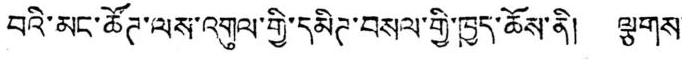བའི་མང་ཚོཊ་ལས་འགུལ་གྱི་དམིཊ་བསལ་གྱི་ཁྱད་ཆོས་ནི། ལྕགས་
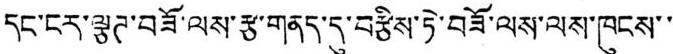དང་ངར་ལྕཊ་བཟོ་ལས་རྩ་གནད་དུ་བརྩིས་ཏེ་བཟོ་ལས་ལས་ཁུངས་་་
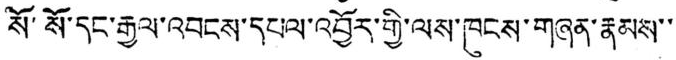སོ་སོ་དང་རྒྱལ་འབངས་དཔལ་འབྱོར་གྱི་ལས་ཁུངས་གཞན་རྣམས་་་
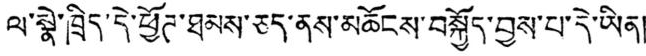ལ་སྣེ་ཁྲིད་དེ་ཕྱོཊ་ཐམས་ཅད་ནས་མཆོངས་བསྐྱོད་བྱས་པ་དེ་ཡིན།
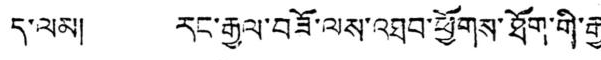ད་ལམ། རང་རྒྱལ་བཟོ་ལས་འཐབ་ཕྱོགས་ཐོག་གི་རྒྱ་
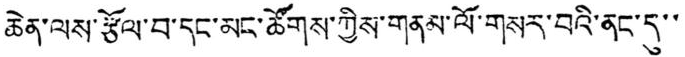ཆེན་ལས་རྩོལ་བ་དང་མང་ཚོགས་ཀྱིས་གནམ་ལོ་གསར་བའི་ནང་དུ་་
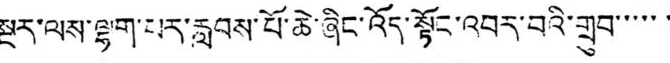སྔར་ལས་ལྷག་པར་རླབས་པོ་ཆེ་ཞིང་འོད་སྟོང་འབར་བའི་གྲུབ་་་་་་
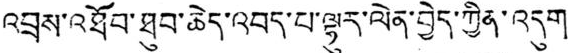འབྲས་འཐོབ་ཐུབ་ཆེད་འབད་པ་ལྷུར་ལེབ་བྱེད་ཀྱིན་འདུག
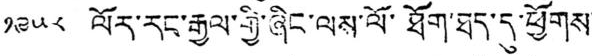༡༩༥༨ ལོར་རང་རྒྱལ་གྱི་ཞིང་ལས་ལོ་ཐོག་ཐད་དུ་ཕྱོགས་་
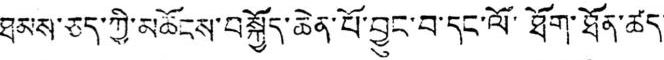ཐམས་ཅད་ཀྱི་མཆོངས་བསྐྱོད་ཆེན་པོ་བྱུང་བ་དང་ལོ་ཐོག་ཐོན་ཚད་་
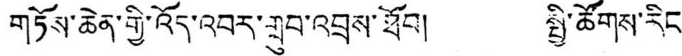གཏོས་ཆེན་གྱི་འོད་འབར་གྲུབ་འབྲས་ཐོབ། སྤྱི་ཚོགས་རིང་
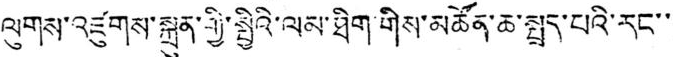ལུགས་འཛུགས་སྐྲུན་གྱི་སྤྱིའི་ལམ་ཐིག་གིས་མཚོན་ཆ་སྤྲད་པའི་རང་་་
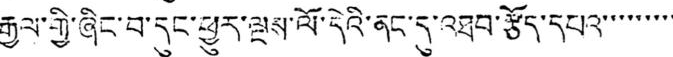རྒྱལ་གྱི་ཞིང་བ་དུང་ཕྱུར་ལྔས་ལོ་དེའི་ནང་དུ་འཐབ་རྩོད་དཔའ་་་་་་་་་་
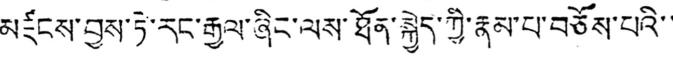མཛངས་བྱས་ཏེ་རང་རྒྱལ་ཞིང་ལས་ཐོན་སྐྱེད་ཀྱི་རྣམ་པ་བཅོས་པའི་་
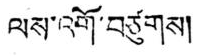ལས་འགོ་བཙུགས།
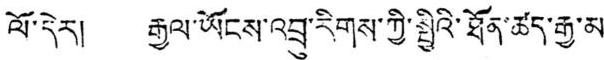ལོ་དེར། རྒྱལ་ཡོངས་འབྲུ་རིགས་ཀྱི་སྤྱིའི་ཐོན་ཚད་རྒྱ་མ་
